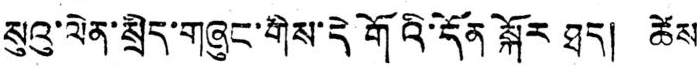སུའུ་ལེན་སྲིད་གཞུང་གིས་དེ གོའི་དོན སྐོར ཐད། ཚེས
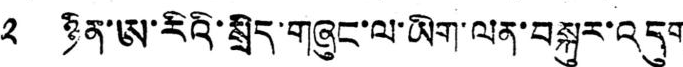༢ ཉིན་ཨ་རིའི་སྲིད་གཞུང་ལ་ཡིག་ལན་བསྐུར་འདུག
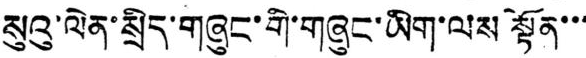སུའུ་ལེན་སྲིད་གཞུང་གི་གཞུང་ཡིག་ལས སྟོན་་་
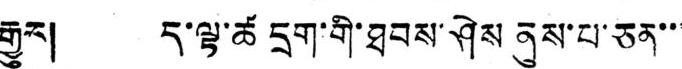རྒྱུར། ད་ལྟ་ཚ དྲག་གི་ཐབས་ཤེས ནུས་པ་ཅན་་་
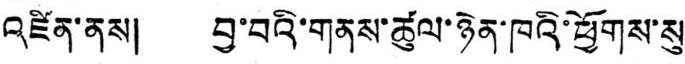འཛིན་ནས། བྱ་བའི་གནས་ཚུལ་ཉེན་ཁའི་ཕྱོགས་སུ་
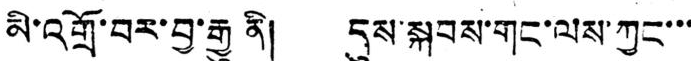མི་འགྲོ་བར་བྱ་རྒྱུ ནི། དུས་སྐབས་གང་ལས་ཀྱང་་་
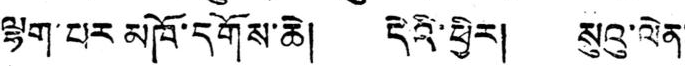ལྷག་པར མཁོ་དགོས་ཆེ། དེའི་ཕྱིར། སུའུ་ལེན་
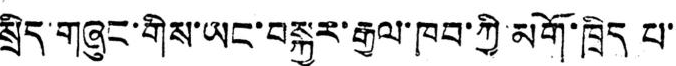སྲིད་གཞུང་གིས་ཡང་བསྐྱར་རྒྱལ་ཁབ་ཀྱི་མགོ་ཁྲིད པ་་
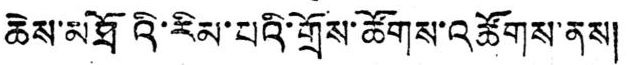ཆེས་མཐོའི་རིམ་པའི་གྲོས་ཚོགས་འཚོགས་ནས།
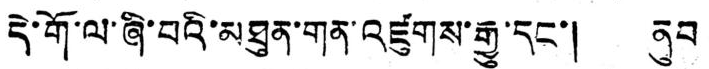དེ་གོ་ལ་ཞི་བའི་མཐུན་གན་འཛུགས་རྒྱུ་དང་། ནུབ
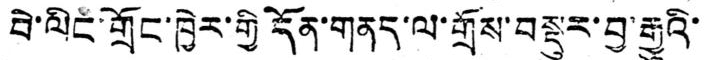བེ་ལིང་གྲོང་ཁྱེར་གྱི དོན་གནད་ལ་གྲོས་བསྡུར་བྱ་རྒྱུའི་
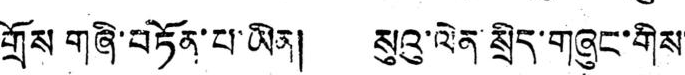གྲོས གཞི་བཏོན་པ་ཡིན། སུའུ་ལེན་སྲིད་གཞུང་གིས་
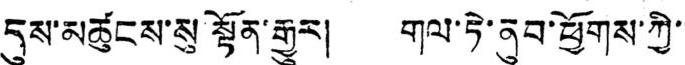དུས་མཚུངས་སུ སྟོན་རྒྱུར། གལ་ཏེ་ནུབ་ཕྱགས་ཀྱི་་
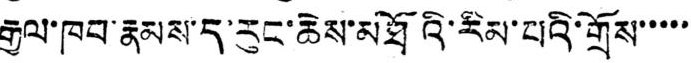རྒྱལ་ཁབ་རྣམས་ད་རུང་ཆེས་མཐོའི་རིམ་པའི་གྲོས་་་་་
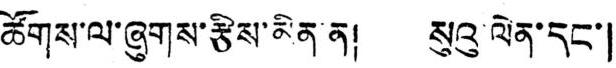ཚོགས་ལ་ཞུགས་རྩིས་མིན་ན། སུའུ ལེན་དང་།
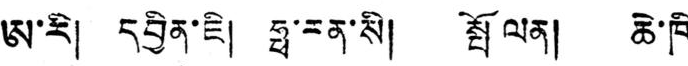ཨ་རི། དབྱིན་ཇི། ཧྥ་རན་སི། སྤོ ལན། ཆེ་ཁི
